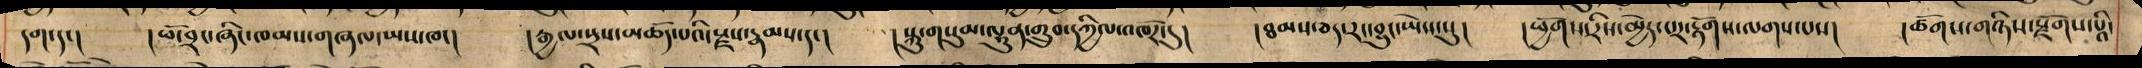དག་དང། །ཕོ་བྲང་ཞིང་ཁམས་གཞལ་ཡས་ཁང། །རྒྱལ་སྲས་མཆོད་པའི་སྫས་རྣམས་དང། །སྐུ་གསུམ་ལྷུན་གྲུབ་དཀྱིལ་འཁོར་དུ། །ཐམས་ཅད་རང་བྱུང་ཡེས་སུ། །ཕྱོགས་རིས་མྱེད་པར་རྟོགས་ལགས་པས། །ཚོགས་གཉིས་སྫོགས་པི་
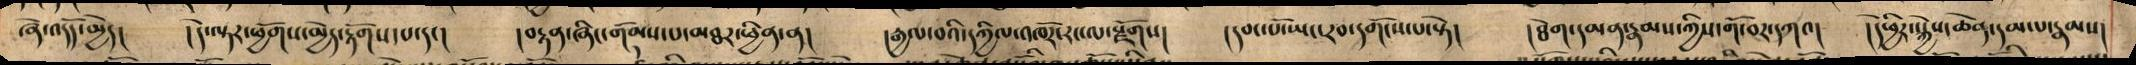ཞེ་འདོད་མྱེད། །དེ་ལྟར་ཕྱོགས་མྱེད་རྟོགས་པ་དང། །བརྟན་ཞིང་གོམས་པ་མཐར་ཕྱིན་ན། །རྒཡལ་བའི་དཀྱིལ་འཁོར་རང་ལ་སྫོགས། །དབང་པོ་ཡང་རབ་དགོངས་པ་སྟེ། །ཐེག་དམན་རྣམས་ཀྱིས་གོ་བར་དཀའ། །དེ་ཕྱིར་སྐྱེས་ཆེན་དམ་པ་རྣམས།
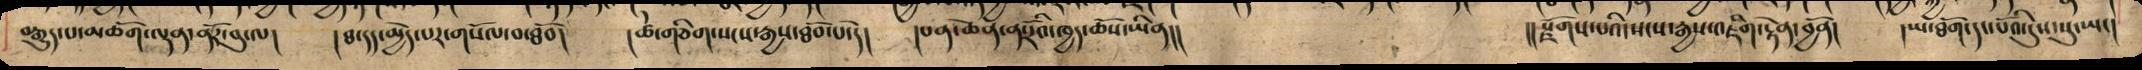བརྒྱུད་པ་མཆོག་ལྡན་ནོར་བུ་ལ། །ཐ དད་མྱེད་པར་གསོལ་བ་ཐོབ། །ཚེ་གཅིག་སངས་རྒྱས་ཐོབ་པ་དེ། །པན་ཆེན་ན་རོའི་ཁྱད་ཆོས་ཡིན།། །།སྫོགས་པའི་སངས་རྒྱས་འཇིག་རྟེན་བྱོན། །ཡ་ཐོག་དང་པོའི་དུས་སུ་ཡང།
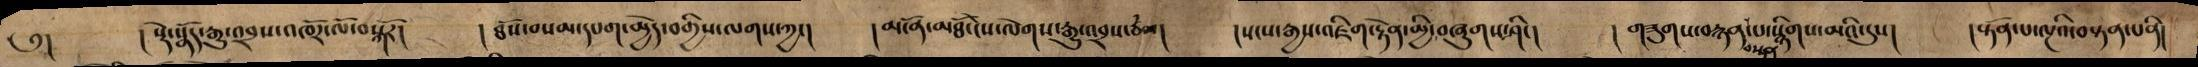༅། །སྡེ་སྣོད་རྒྱུ་འབྲས་འཁོར་ལོ་བསྐོར། །ཐོས་བསམ་དཔག་མྱེད་བགྱིས་ལགས་ཀྱང། །མངོན་མཐོ་ངེས་ལེགས་རྒྱུ་འབྲས་ཙམ། །སངས་རྒྱས་འཇིག་རྟེན་མྱི་བཞུགས་ཤིང། །གཟུགས་བརྙན་པ་སྙིགས་མའི་དུས། །སྟོན་པ་ལྔའི་བསྟན་པ་ནི།
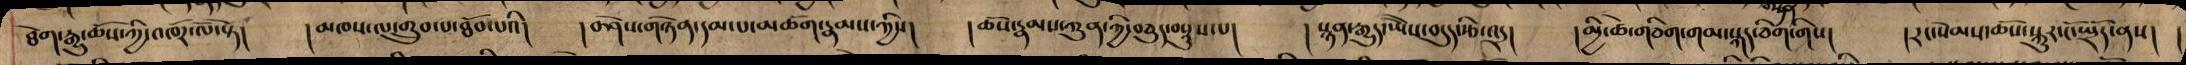ཐེག་རྒྱུ་ཆོས་ཀྱི་འཁོར་ལོ་སྟེ། །མཁས་ལ་གྲུབ་པ་ཐོབ་པའི། །བཤེས་གཉེན་དམ་པ་མཆོག་རྣམས་ཀྱིས། །ཆོས་རྣམས་ཀུན་ཀྱི་བཅུད་བསྡུས་པ། །སྙན་རྒྱུད་ཡཻས་བདུད་རྩི་འདྲ། །མྱི་ཚེ་གཅིག་གམ་སྐད་ཅིག་གིས། །རང་སེམས་ཆོས་སྐུར་ངོ་སྤྲོད་ནས། །
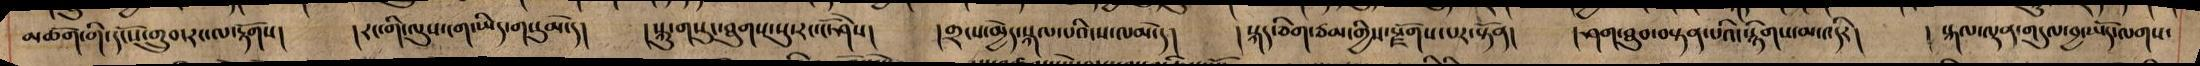མཆོག་གི་དངོས་གྲུབ་རང་ལ་རྟོགས། །རང་གི་ལུས་ངག་ཡིད་གསུམ་དེ། །སྐུ་གསུང་ཐུགས་སུ་རང་ངོ་ཤེས། །གྲངས་མྱེད་སྐལ་པའི་ས་ལམ་དེ། །སྐད་ཅིག་ཙམ་གྱིས་སྫོགས་པར་སྟོན། །ཤག་ཐུབ་བསྟན་པའི་སྙིགས་མ་འདིར། ། སྐལ་ལྡན་གདུལ་བྱ་ཡོད་ལགས་
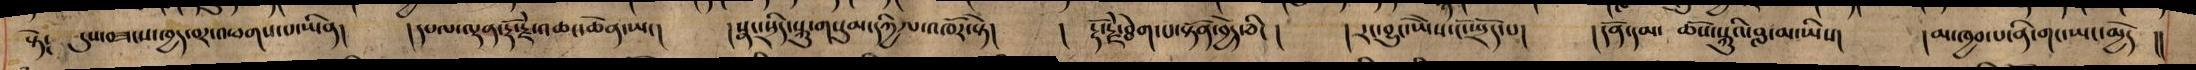སྟེ༴ དུས་བཟངས་ཁྱད་པར་འཕགས་པ་ཡིན། །དཔལ་ལྡན་རྡོ་རྗེ་འཆང་ཆེན་ཡང། །སྣང་སྲིད་སྐུ་གསུམ་དཀྱིལ་འཁོར་སྟེ། ། རྡོ་རྗེ་ཐེག་པ་སྟོན་བྱེད་ཅིང། །རང་བྱུང་ཡཻས་ངོ་སྤྲོད་པ། །དོན་དམ་ཆོས་སྐུའི་བླ་མ་ཡིས། །མ་ཁྱབ་པ་ནི་གང་ཡང་མྱེད །།
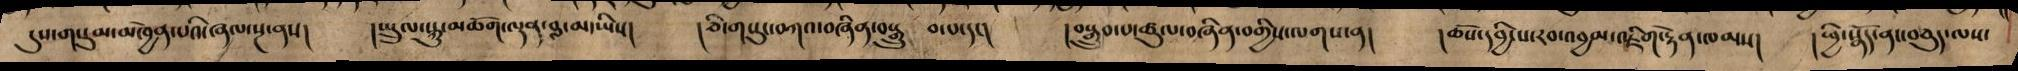དུས་གསུམ་མཁྱེན་པའི་ཞལ་སྔ་ནས། །སྤྲུལ་སྐུ་མཆོག་ལྡན་བླ་མ་ཡིས། །ཅི་གསུང་བཀའ་བཞིན་བསྒྲུ བ་པ་དང། །སྒྲུབ་པ་ཚུལ་བཞིན་བགྱིས་ལགས་ན། །ཆོས་དབྱིངས་རབ་འབྱམ་འཇིག་རྟེན་ཁམས། །ཕྱི་སྣོད་ནང་བཅུད་ལས་
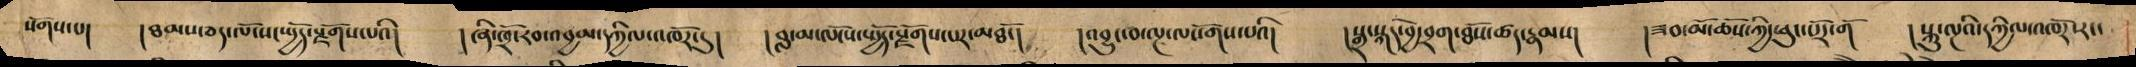སོགས་པ། །ཐམས་ཅད་ལོངས་སྤྱོད་སྫོགས་པའི། །ཞི་ཁྲོ་རབ་འབྱམ་དཀྱིལ་འཁོར་དུ། །བླ་མ་ལོངས་སྤྱོད་སྫོགས་པར་མཐོང། །འབྱུང་བ་ལྔ་ལསོགས་པའི། །སྒྲ་སྐད་བྱེ་བྲག་ཐོས་ཚད་རྣམས། །ཟབ་མོ་ཆོས་ཀྱི་ཕུང་པོར་གོ །སྐུ་ལྔའི་དཀྱིལ་འཁོར་རང་
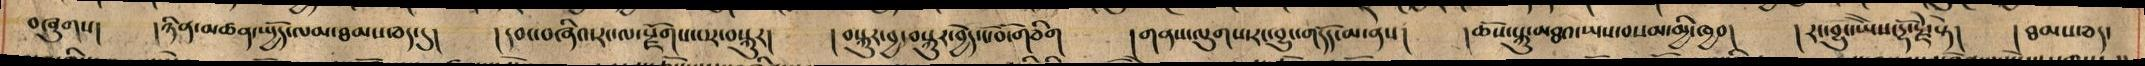བཞུགས། །ཉིན་མཚན་སྤྱོད་ལམ་ཐམས་ཅད་དུ། །དབང་བཞིའ་རང་སྫོགས་པར་བསྐུར། །བསྐུར་བྱ་བསྐུར་བྱེད་ངོ་བོ་གཅིག །གནས་ལུགས་རང་བྱུང་གདོད་མ་ནས། །ཆོས་སྐུ་མཐའ་ཡས་བསམ་མྱི་ཁྱབ། །རང་བྱུང་ཡཻས་རྡོ་རྗེ་སྟེ། །ཐམས་ཅད་
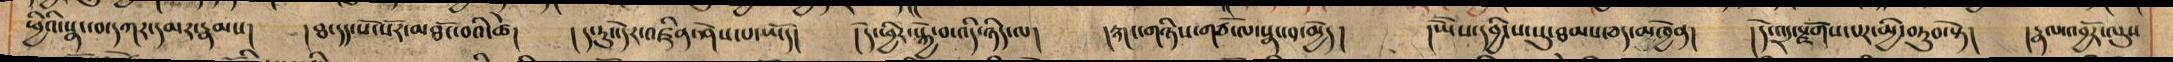ཕྱིའི་སྣང་བ་དཀར་དམར་རྣམས། །ཐ་དད་སོ་སོར་མཐོང་བའི་ཚེ། །ད་རུང་དེར་འཛིན་ཤེས་པ་ཡོད། །དེ་ཕྱིར་སྐྱེ་བ་འདི་ཉིད་ལ། །རྐང་གཉིས་གཙོ་ལ་སྣང་བ་མྱེ། །ཡཻས་དབྱིངས་སུ་ཐམས་ཅད་མཁྱེན། །དེ་འདྲ་སྫོགས་པར་མྱི་བཏུབ་སྟེ། །རྣལ་འབྱོར་ལུས
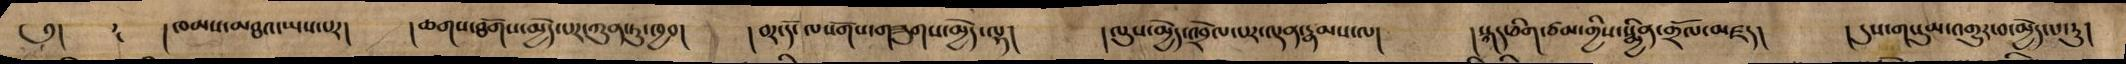༅། །ཁམས་མཐའ་ཡས་པར། །ཆགས་ཐོགས་མྱེད་པར་ཀུན་ཏུ་ཁྱབ། །བར་དོ་ལསོགས་གཟུགས་མྱེད་ལྷ། །ལུས་མྱེད་འབྲེལ་པར་ལྡན་རྣམས་ལ། །སྐད་ཅིག་ཙམ་གྱིས་སྨྱིན་གྲོལ་མཛད། །དུས་གསུམ་འགྱུར་བ་མྱེད་པ་རུ།
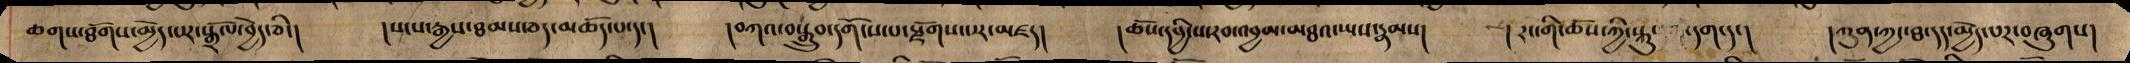ཆགས་ཐོགས་མྱེད་པར་སྒརོལ་བྱེད་ཅིང། །སངས་རྒྱས་ཐམས་ཅད་མཆོད་པ་དང། །བཀའ་བསྒྲུབ་དགོངས་པ་སྫོགས་པར་མཛད། །ཆོས་དབྱིངས་རབ་འབྱམ་མཐའ་ཡས་རྣམས། །རང་གི་ཆོས་ཀྱི་སྐུ་ དག་དང། །ཀུན་ཀྱང་ཐ་དད་མྱེད་པར་བཞུགས།
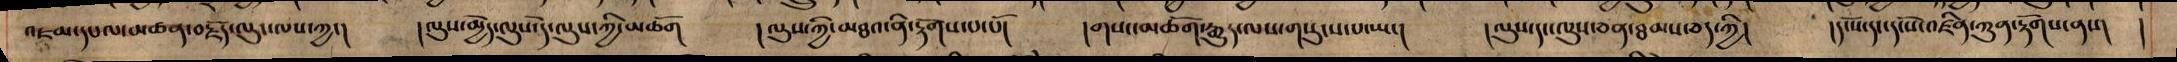འཇམ་དཔལ་མཚན་བརྗོད་ལུང་ལས་ཀྱང། །ལུས་མྱེད་ལུས་དེ་ལུས་ཀྱི་མཆོག །ལུས་ཀྱི་མཐའ་ནི་རྟོགས་པ་པོ། །གསང་མཆོག་རྒྱུད་ལས་གསུངས་པ་ཡང། །ལུས་དང་ལུས་ཅན་ཐམས་ཅད་ཀྱི། །དངོས་དང་དངོས་འཛིན་ཀུན་རྟོགས་ནས།
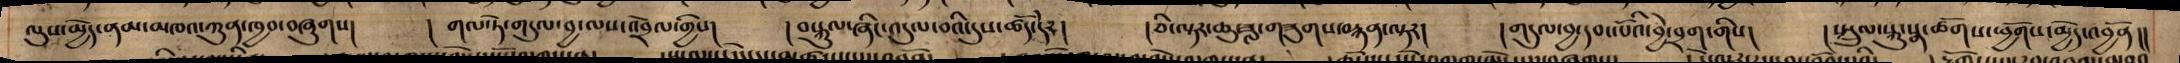ལུས་མྱེད་ནམ་མཁའ་ཀུན་ཁྱབ་བཞུགས། ། གལ་ཏེ་གདུལ་བྱ་ལས་འབྲེལ་གྱིས། །སྦུལ་ཞིང་འདུལ་བའི་དུས་ཚོད་དེར། །ཅི་ལྟར་ཆུ་ཟླ་གཟུགས་བརྙན་ལྟར། །གདུལ་བྱ་དབང་པོའི་བྱེ་བྲག་གིས། །སྤྲུལ་སྐུ་སྣ་ཚོགས་ཕྱོགས་མྱེད་འབྱོན།།
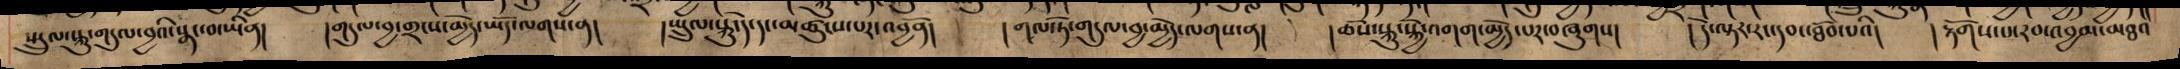སྤྲུལ་སྐུ་གདུལ་བྱའི་སྣང་བ་ཡིན། །གདུལ་བྱ་གྲངས་མྱེད་ཡོད་ལགས་ན། །སྤྲུལ་སྐུ་དེ་དང་མཚུངས་པར་འབྱོན། །གལ་ཏེ་གདུལ་བྱ་མྱེད་ལགས་ན། །ཆོས་སྐུ་སྐྱེ་འགག་མྱེད་པར་བཞུགས། །དེ་ལྟར་རང་དབང་ཐོབ་པའི། །རྟོགས་པ་རབ་འབྱམ་མཐའ
